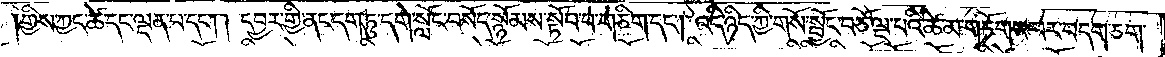གྱིས་ཀྱང་ཚེ་དང་ལྡན་པ་དང༌། །དབྱར་གྱི་ནང་དག་ཏུ་དགེ་སློང་བསོད་སྙོམས་སྟོབ་པ་གཅིག་དང༌། འདི་ཉིད་ཀྱི་གསོ་སྦྱོང་བཅོ་ལྔ་པའི་ཚེ་མ་གཏོགས་པར་བདག་ཅག་
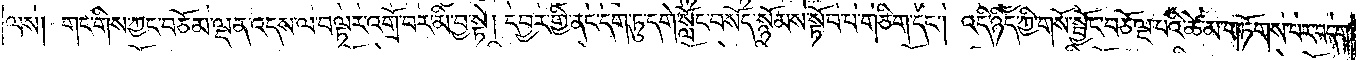ལས། གང་གིས་ཀྱང་བཅོམ་ལྡན་འདས་ལ་བལྟར་འགྲོ་བར་མི་བྱ་སྟེ། དབྱར་གྱི་ནང་དག་ཏུ་དགེ་སློང་བསོད་སྙོམས་སྟོབ་པ་གཅིག་དང༌། འདི་ཉིད་ཀྱི་གསོ་སྦྱོང་བཅོ་ལྔ་པའི་ཚེ་མ་གཏོགས་པར་བདག་
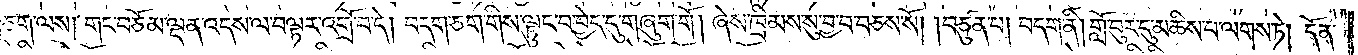ཅག་ལས། གང་བཅོམ་ལྡན་འདས་ལ་བལྟར་འགྲོ་བ་དེ། བདག་ཅག་གིས་ལྟུང་བ་བྱེད་དུ་གཞུག་གོ། ཞེས་ཁྲིམས་སུ་བྱ་བ་བཅས་སོ། །བཙུན་པ། བདག་ནི། གློ་བུར་དུ་མཆིས་པ་ལགས་ཏེ། དོན་
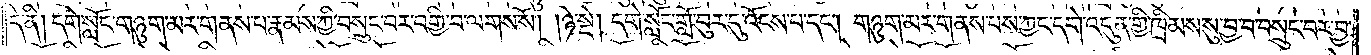དེ་ནི། དགེ་སློང་གཉུག་མར་གནས་པ་རྣམས་ཀྱི་བསྲུང་བར་བགྱི་བ་ལགས་སོ། །ཉེ་སྡེ། དགེ་སློང་གློ་བུར་དུ་འོངས་པ་དང༌། གཉུག་མར་གནས་པས་ཀྱང་དགེ་འདུན་གྱི་ཁྲིམས་སུ་བྱ་བ་བསྲུང་བར་བྱ་
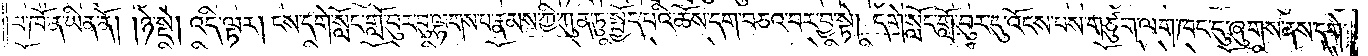བ་ཁོ་ན་ཡིན་ནོ། །ཉེ་སྡེ། འདི་ལྟར། ངས་དགེ་སློང་གློ་བུར་བུ་ལྷགས་པ་རྣམས་ཀྱི་ཀུན་ཏུ་སྤྱོད་པའི་ཆོས་དག་བཅའ་བར་བྱ་སྟེ། དགེ་སློང་གློ་བུར་དུ་འོངས་པས་གཙུག་ལག་ཁང་དུ་ཞུགས་ནས་དགེ་
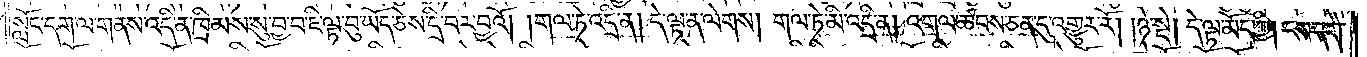སློང་དག་ལ་གནས་འདི་ན་ཁྲིམས་སུ་བྱ་བ་ཇི་ལྟ་བུ་ཡོད་ཅེས་དྲི་བར་བྱའོ། །གལ་ཏེ་འདྲི་ན། དེ་ལྟ་ན་ལེགས། གལ་ཏེ་མི་འདྲི་ན། འགལ་ཚབས་ཅན་དུ་འགྱུར་རོ། །ཉེ་སྡེ། དེ་ལྟ་མོད་ཀྱི། ངས་དགེ་
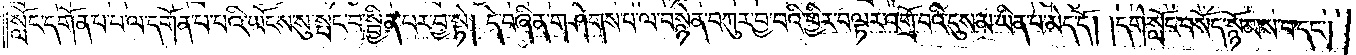སློང་དགོན་པ་པ་ལ་དགོན་པ་པའི་ཡོངས་སུ་སྤང་བ་སྦྱིན་པར་བྱ་སྟེ། དེ་བཞིན་གཤེགས་པ་ལ་བསྙེན་བཀུར་བྱ་བའི་ཕྱིར་བལྟར་འགྲོ་བའི་དུས་མ་ཡིན་པ་མེད་དོ། །དགེ་སློང་བསོད་སྙོམས་པ་དང༌།
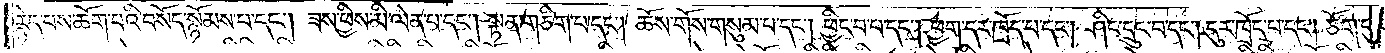རྙེད་པས་ཆོག་པའི་བསོད་སྙོམས་པ་དང༌། ཟས་ཕྱིས་མི་ལེན་པ་དང༌། སྟན་གཅིག་པ་དང༌། ཆོས་གོས་གསུམ་པ་དང༌། ཕྱིང་བ་པ་དང༌། ཕྱག་དར་ཁྲོད་པ་དང༌། ཤིང་དྲུང་བ་དང༌། དུར་ཁྲོད་པ་དང༌། ཙོག་པུ་པ་
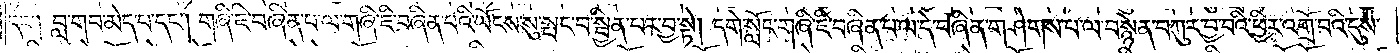དང༌། བླ་གབ་མེད་པ་དང༌། གཞི་ཇི་བཞིན་པ་ལ་གཞི་ཇི་བཞིན་པའི་ཡོངས་སུ་སྤང་བ་སྦྱིན་པར་བྱ་སྟེ། དགེ་སློང་གཞི་ཇི་བཞིན་པ་ལ་དེ་བཞིན་གཤེགས་པ་ལ་བསྙེན་བཀུར་བྱ་བའི་ཕྱིར་འགྲོ་བའི་དུས་
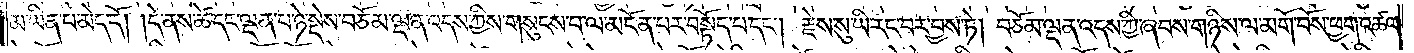མ་ཡིན་པ་མེད་དོ། །དེ་ནས་ཚེ་དང་ལྡན་པ་ཉེ་སྡེས་བཅོམ་ལྡན་འདས་ཀྱིས་གསུངས་པ་ལ་མངོན་པར་བསྟོད་པ་དང༌། རྗེས་སུ་ཡི་རང་བར་བྱས་ཏེ། བཅོམ་ལྡན་འདས་ཀྱི་ཞབས་གཉིས་ལ་མགོ་བོས་ཕྱག་འཚལ་
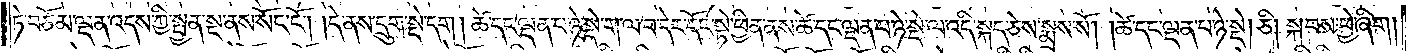ཏེ་བཅོམ་ལྡན་འདས་ཀྱི་སྤྱན་སྔ་ནས་སོང་ངོ༌། །དེ་ནས་དྲུག་སྡེ་དག ། ཚེ་དང་ལྡན་པ་ཉེ་སྡེ་ག་ལ་བ་དེར་དོང་སྟེ་ཕྱིན་ནས་ཚེ་དང་ལྡན་པ་ཉེ་སྡེ་ལ་འདི་སྐད་ཅེས་སྨྲས་སོ། །ཚེ་དང་ལྡན་པ་ཉེ་སྡེ། ཅི། སྐབས་ཕྱེ་ཞིག།
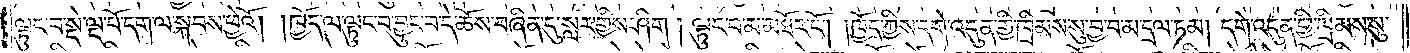ལྟུང་བ་སྡེ་ལྔ་པོ་དག་ལ་སྐབས་ཕྱེའོ། །ཁྱོད་ལ་ལྟུང་བ་བྱུང་བ་དེ་ཆོས་བཞིན་དུ་སླར་གྱིས་ཤིག །ལྟུང་བ་མ་མཐོང་ངོ༌། །ཁྱོད་ཀྱིས་དགེ་འདུན་གྱི་ཁྲིམས་སུ་བྱ་བ་མ་དྲལ་ཏམ། དགེ་འདུན་གྱི་ཁྲིམས་སུ་
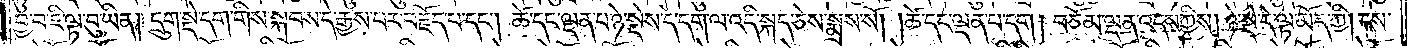བྱ་བ་ཇི་ལྟ་བུ་ཡིན། དྲུག་སྡེ་དག་གིས་སྐབས་དེ་རྒྱས་པར་བརྗོད་པ་དང༌། ཚེ་དང་ལྡན་པ་ཉེ་སྡེས་དེ་དག་ལ་འདི་སྐད་ཅེས་སྨྲས་སོ། །ཚེ་དང་ལྡན་པ་དག། བཅོམ་ལྡན་འདས་ཀྱིས། ཉེ་སྡེ་དེ་ལྟ་མོད་ཀྱི། ངས་
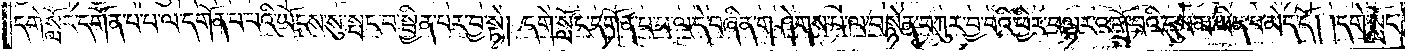དགེ་སློང་དགོན་པ་པ་ལ་དགོན་པ་པའི་ཡོངས་སུ་སྤང་བ་སྦྱིན་པར་བྱ་སྟེ། དགེ་སློང་དགོན་པ་པ་ལ་དེ་བཞིན་གཤེགས་པ་ལ་བསྙེན་བཀུར་བྱ་བའི་ཕྱིར་བལྟར་འགྲོ་བའི་དུས་མ་ཡིན་པ་མེད་དོ། །དགེ་སློང་
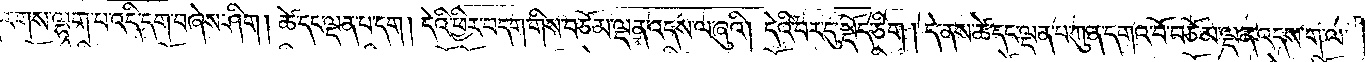རགས་ལྷག་པ་འདི་དག་བཞེས་ཤིག །ཚེ་དང་ལྡན་པ་དག། དེའི་ཕྱིར་བདག་གིས་བཅོམ་ལྡན་འདས་ལ་ཞུའི། དེའི་བར་དུ་སྡོད་ཅིག ། དེ་ནས་ཚེ་དང་ལྡན་པ་ཀུན་དགའ་བོ་བཅོམ་ལྡན་འདས་ག་ལ་
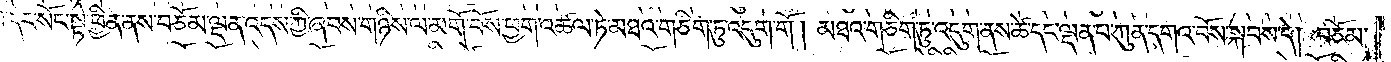བ་དེར་སོང་སྟེ་ཕྱིན་ནས་བཅོམ་ལྡན་འདས་ཀྱི་ཞབས་གཉིས་ལ་མགོ་བོས་ཕྱག་འཚལ་ཏེ་མཐའ་གཅིག་ཏུ་འདུག་གོ། མཐའ་གཅིག་ཏུ་འདུག་ནས་ཚེ་དང་ལྡན་པ་ཀུན་དགའ་བོས་སྐབས་དེ། བཅོམ་
